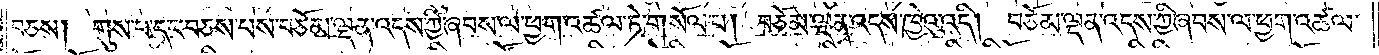བཅས། གུས་པ་དང་བཅས་པས་བཅོམ་ལྡན་འདས་ཀྱི་ཞབས་ལ་ཕྱག་འཚལ་ཏེ་གསོལ་པ། བཅོམ་ལྡན་འདས་ཁྱེའུ་འདི། བཅོམ་ལྡན་འདས་ཀྱི་ཞབས་ལ་ཕྱག་འཚལ་
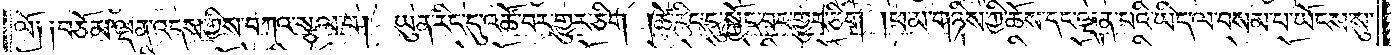ལོ། །བཅོམ་ལྡན་འདས་ཀྱིས་བཀའ་སྩལ་པ། ཡུན་རིང་དུ་འཚོ་བར་གྱུར་ཅིག །ཚེ་རིང་དུ་སྐྱོང་བར་གྱུར་ཅིག །ཕ་མ་གཉིས་ཀྱི་ཆོས་དང་ལྡན་པའི་ཡིད་ལ་བསམ་པ་ཡོངས་སུ་
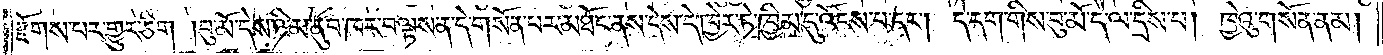རྫོགས་པར་གྱུར་ཅིག །བུ་མོ་དེས་ཉི་མ་ནུབ་ཁར་བལྟས་ན་དེ་གསོན་པར་མཐོང་ནས་དེས་དེ་ཁྱེར་ཏེ་ཁྱིམ་དུ་འོངས་པ་དང༌། དེ་དག་གིས་བུ་མོ་དེ་ལ་དྲིས་པ། ཁྱེའུ་གསོན་ནམ།
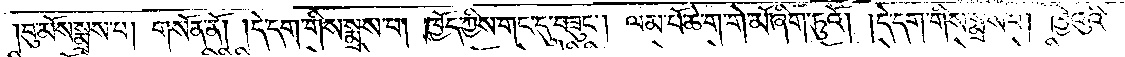བུ་མོས་སྨྲས་པ། གསོན་ནོ། །དེ་དག་གིས་སྨྲས་པ། ཁྱོད་ཀྱིས་གང་དུ་བཟུང༌། ལམ་པོ་ཆེ་ག་གེ་མོ་ཞིག་ཏུའོ། །དེ་དག་གིས་སྨྲས་པ། ཁྱེའུའི་
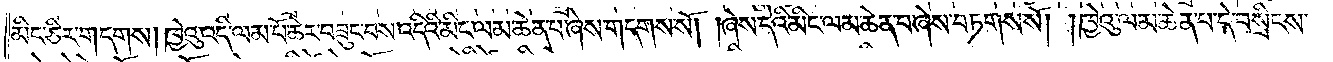མིང་ཅིར་གདགས། ཁྱེའུ་འདི་ལམ་པོ་ཆེར་བཟུང་བས་འདིའི་མིང་ལམ་ཆེན་པ་ཞེས་གདགས་སོ། །ཞེས་དེའི་མིང་ལམ་ཆེན་པ་ཞེས་བཏགས་སོ། །ཁྱེའུ་ལམ་ཆེན་པ་དེ་བསྲིངས་
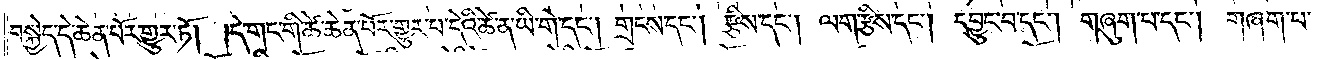བསྐྱེད་དེ་ཆེན་པོར་གྱུར་ཏོ། །དེ་གང་གི་ཚེ་ཆེན་པོར་གྱུར་པ་དེའི་ཚེ་ན་ཡི་གེ་དང༌། གྲངས་དང༌། རྩིས་དང༌། ལག་རྩིས་དང༌། དབྱུང་བ་དང༌། གཞུག་པ་དང༌། གཞག་པ་
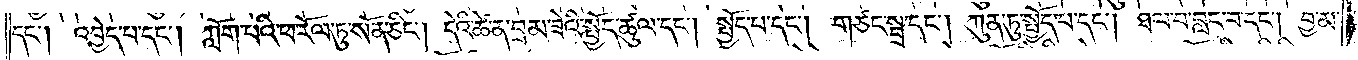དང༌། འབྱེད་པ་དང༌། ཀློག་པའི་ཕ་རོལ་ཏུ་སོན་ཅིང༌། དེའི་ཚེ་ན་བྲམ་ཟེའི་སྤྱོད་ཚུལ་དང༌། སྤྱོད་པ་དང༌། གཙང་སྦྲ་དང༌། ཀུན་ཏུ་སྤྱོད་པ་དང༌། ཐལ་བ་བླང་བ་དང༌། བྱ་མ་
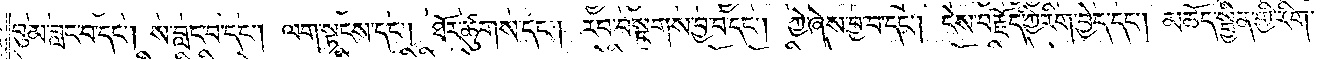བུམ་བླང་བ་དང༌། ས་བླང་བ་དང༌། ལག་སྟངས་དང༌། ཐོར་ཚུགས་དང༌། རབ་བསྔགས་བྱ་བ་དང༌། ཀྱེ་ཞེས་བྱ་བ་དང༌། ངེས་བརྗོད་ཀྱི་རིག་བྱེད་དང༌། མཆོད་སྦྱིན་གྱི་རིག་
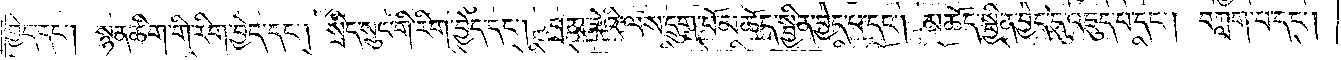བྱེད་དང༌། སྙན་ཚིག་གི་རིག་བྱེད་དང༌། སྲིད་སྲུང་གི་རིག་བྱེད་དང༌། བྲམ་ཟེའི་ལས་དྲུག་པོ་མཆོད་སྦྱིན་བྱེད་པ་དང༌། མཆོད་སྦྱིན་བྱེད་དུ་འཇུད་པ་དང༌། བཀླག་པ་དང༌།
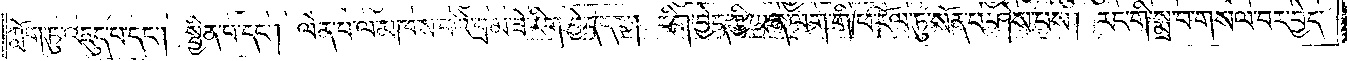ཀློག་ཏུ་འཇུད་པ་དང༌། སྦྱིན་པ་དང༌། ལེན་པ་ལ་མཁས་པའི་བྲམ་ཟེ་རིག་བྱེད་དང༌། རིག་བྱེད་ཀྱི་ཡན་ལག་གི་ཕ་རོལ་ཏུ་སོན་པ་ཤེས་པས། རང་གི་སྨྲ་བ་གསལ་བར་བྱེད་
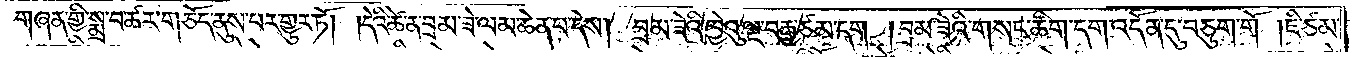པ༑ གཞན་གྱི་སྨྲ་བ་ཚར་གཅོད་ནུས་པར་གྱུར་ཏོ། །དེའི་ཚེ་ན་བྲམ་ཟེ་ལམ་ཆེན་པ་དེས། བྲམ་ཟེའི་ཁྱེའུ་ལྔ་བརྒྱ་ཙམ་དག །བྲམ་ཟེའི་གསང་ཚིག་དག་འདོན་དུ་བཅུག་གོ །ཇི་ཙམ་
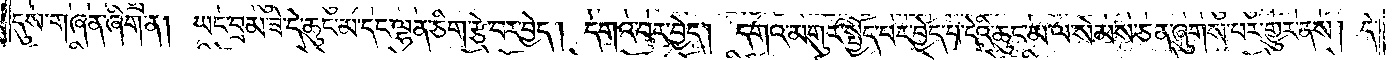དུས་གཞན་ཞིག་ན། ཡང་བྲམ་ཟེ་དེ་ཆུང་མ་དང་ལྷན་ཅིག་རྩེ་བར་བྱེད། དགའ་བར་བྱེད། དགའ་མགུར་སྤྱོད་པར་བྱེད་པ་དེའི་ཆུང་མ་ལ་སེམས་ཅན་ཞུགས་པར་གྱུར་ནས། དེ་
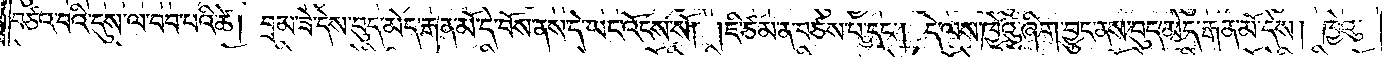བཙའ་བའི་དུས་ལ་བབ་པའི་ཚེ། བྲམ་ཟེ་དེས་བུད་མེད་རྒན་མོ་དེ་བོས་ནས་དེ་ཡང་འོངས་སོ། །ཇི་ཙམ་ན་བཙས་པ་དང༌། དེ་ལས་ཁྱེའུ་ཞིག་བྱུང་ནས་བུད་མེད་རྒན་མོ་དེས། ཁྱེའུ་
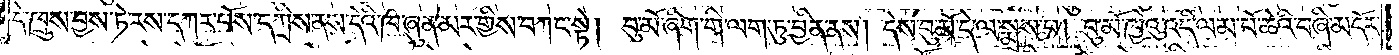དེ་ཁྲུས་བྱས་ཏེ་རས་དཀར་པོས་དཀྲིས་ནས་དེའི་ཁ་ཞུན་མར་གྱིས་བཀང་སྟེ། བུ་མོ་ཞིག་གི་ལག་ཏུ་བྱིན་ནས། དེས་བུ་མོ་དེ་ལ་སྨྲས་པ། བུ་མོ་ཁྱེའུ་འདི་ལམ་པོ་ཆེའི་བཞི་མདོར་
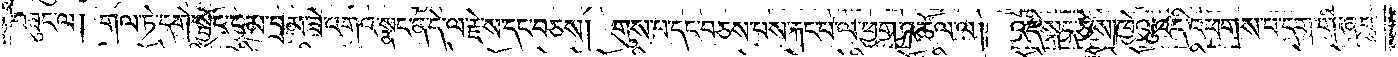བཟུང་ལ། གལ་ཏེ་དགེ་སྦྱོང་ངམ་བྲམ་ཟེ་འགའ་སྣང་ན་དེ་ལ་རྗེས་དང་བཅས། གུས་པ་དང་བཅས་པས་རྐང་པ་ལ་ཕྱག་འཚོལ་ལ། འདི་སྐད་ཅེས་ཁྱེའུ་འདི་འཕགས་པ་དག་གི་ཞབ
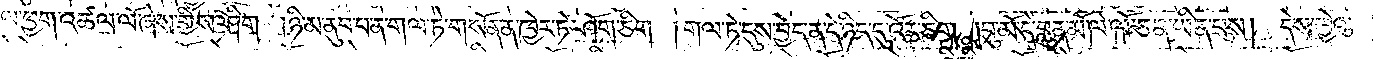ལ་ཕྱག་འཚལ་ལོ་ཞེས་གྱིས་ཤིག །ཉི་མ་ནུབ་པ་ན་གལ་ཏེ་གསོན་ན་ཁྱེར་ཏེ་ཤོག་ཅིག །གལ་ཏེ་དུས་བྱེད་ན་དེ་ཉིད་དུ་འོར་ཅིག །བུ་མོ་དེ་བླུན་མོ་ལེ་ལོ་ཅན་ཡིན་པས། དེས་ཁྱེའུ་
